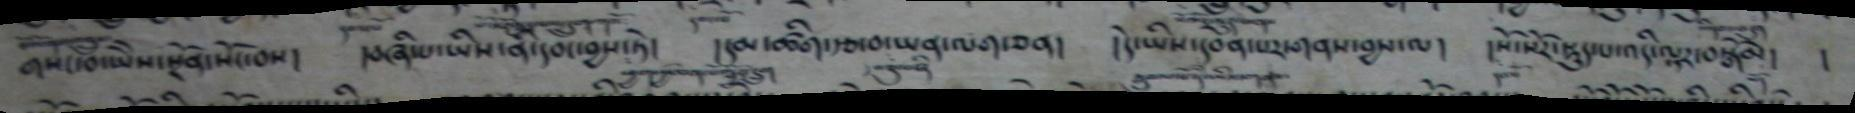གསང་པ་ཡེེས་སྔོན་སོང་བས།  ། བཞི་པ་ཡིས་ནི་དབང་བྱས་ཏེ།    དམ་ཚིག་རྩ་བ་ཡན་ལག་ཅན།   །དེ་ཡིས་དབེན་པར་གནས་བྱས་ལ།   ། སོ་སོར་སྡུད་པ་འདི་ལྟར་བསྒོམ།   །
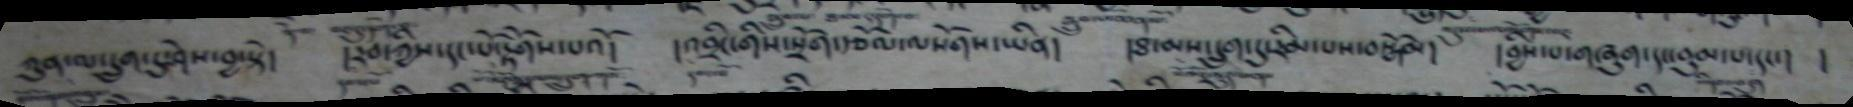ཀུན་ལ་དྲུག་དུ་ཤེས་བྱ་སྟེ།     །རབ་ཀྱིས་དང་པོ་རྟོགས་པའོ།    ། འབྲིང་གིས་སྲོག་རྩོལ་ལསོགས་ཡིན།   །ཐ་མས་དྲུག་དུ་རིམ་པས་བསྒོམ།     །བྱིས་པ་གཞུག་དང་བུམ་པ་དང་།    །
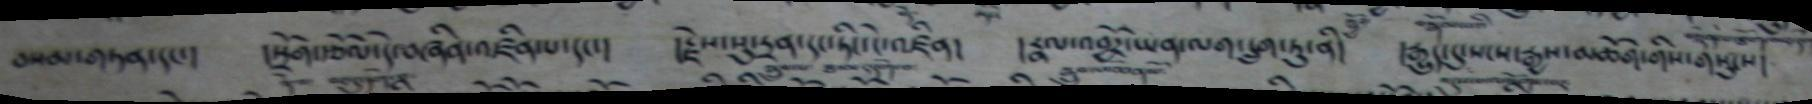བསམ་གཏན་དང་།    །སྲོག་རྩོལ་དེ་བཞིན་འཛིན་པ་དང་།   །རྗེས་སུ་དྲན་དང་ཏིང་ངེ་འཛིན།   །  རྣལ་འབྱོར་ཡན་ལག་དྲུག་ཏུ་ནི།   །རྒྱུད་དུ་སངས་རྒྱས་མཆོག་གིས་གསུངས།
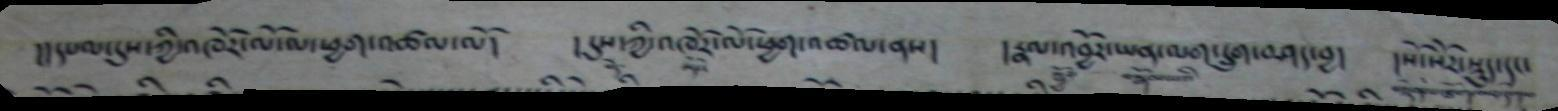།།དཔལ་དུས་ཀྱི་འཁོར་ལོ་ལ་ཕྱག་འཚལ་ལོ། །དུས་ཀྱི་འཁོར་ལོ་ཕྱག་འཚལ་ནས། །རྣལ་འབྱོར་ཡན་ལག་དྲུག་བཤད་བྱ། །སོ་སོར་སྡུད་དང་
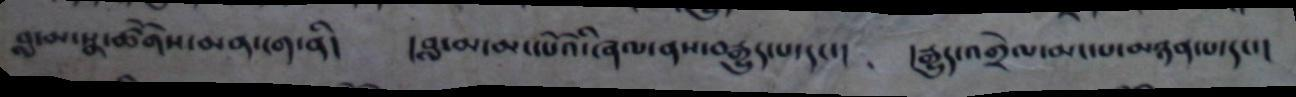བླ་མ་སྣ་ཚོགས་མན་ངག་ནི། །བླ་མ་མང་པོའི་ཞལ་ནས་བརྒྱུད་པ་དང་། །རྒྱུད་འགྲེལ་མང་པ་མཉམ་པ་དང་།
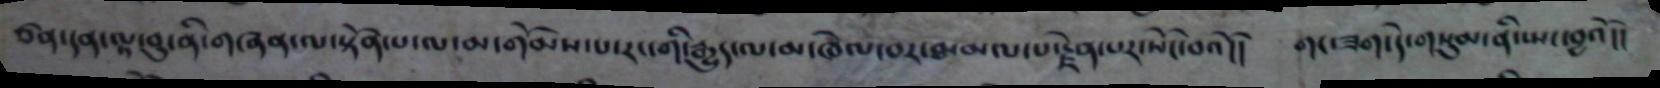ཙན་དན་ལྟ་བུ་ནི་གཞན་ལ་སྟོན་པ་ལ་མ་གོམས་པ་རང་གི་རྒྱུད་ལ་མ་ཁེལ་བར་ཐ་མལ་པ་རྗེན་པར་སོང་བའོ།། གང་ཟག་དེ་གསུམ་ནི་ཡང་བྱའོ།།
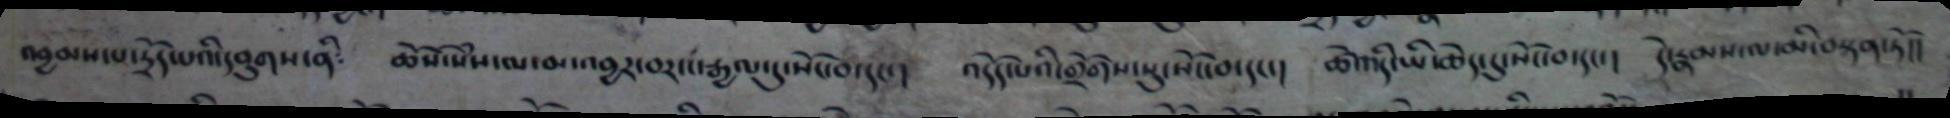འབྱམས་པ་དྲོད་པའི་དབུགས་ནི༴ ཆོས་སེཾས་ལ་མ་འབྱར་བར་ང་རྒྱལ་དུ་སོང་བ་དང་། འདོད་པའི་གྲོགས་སུ་སོང་བ་དང་། ཚེ་འདི་ཡི་ཆེད་དུ་སོང་བ་དང་། དེ་རྣམས་ལ་མི་བསྟན་ཏོ།།
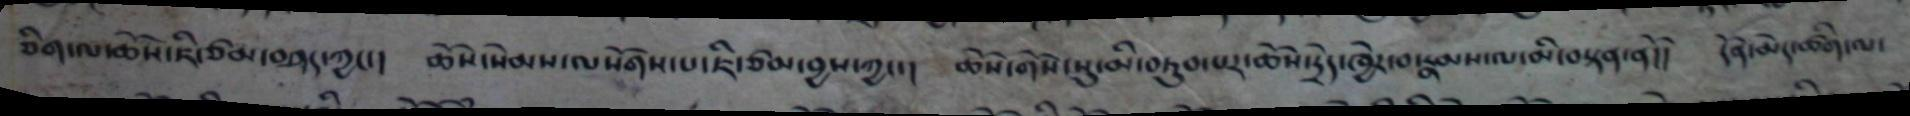ཅིག་ལ་ཆོས་ཇི་ཙམ་བཤད་ཀྱང་། ཆོས་སེམས་ལསོགས་པ་ཇི་ཙམ་བྱས་ཀྱང་། ཆོས་གོས་སུ་མི་བཏུབ་པར་ཆོས་དྲོད་ཁྱེར་བ་རྣམས་ལ་མི་བསྟན་ནོ།། དོན་མེད་ཚིག་ལ་
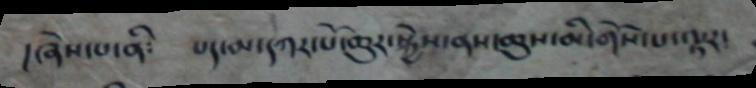།ཞེས་པ་ནི༴ པད་མ་དཀར་པོ་ཆུར་སྐྱེས་ནས་ཆུས་མི་གོས་པ་ལྟར་
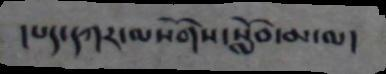།པད་དཀར་ལསོགས་སློབ་མ་ལ།
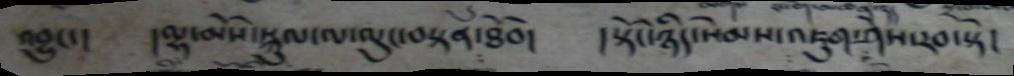འབྱུང་། །ལྷ་མོས་སྐུལ་ལ་ལུང་བསྟན་ཐོབ། །སྟོང་ཉཱིད་སེམས་འཇུག་ཤེས་རབ་སྟེ།
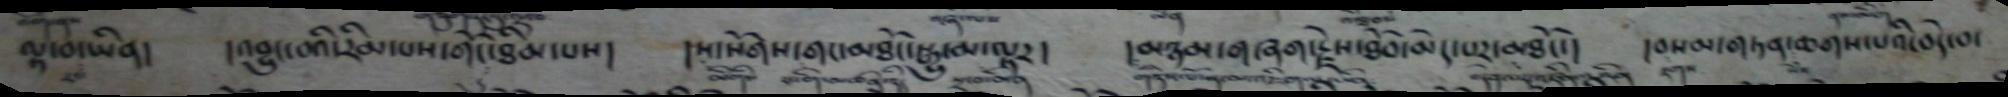ལྟ་བ་ཡིན།    །འབྱུང་བའི་རིམ་པས་གོང་ཐམ་པས།   དས་སོགས་གང་མཐོང་སྒྱུ་མ་ལྟར།   །མཉམ་གཞག་རྗེས་ཐོབ་མེད་པར་མཐོང་།།   །བསམ་གཏན་ཆགས་པའི་བདེ་བ་
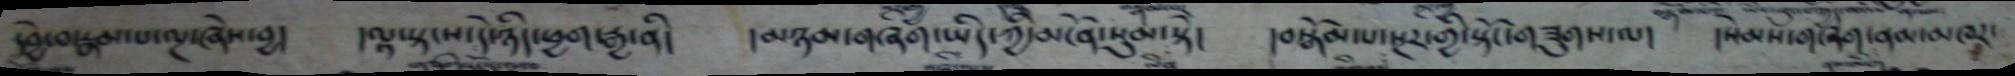དབྱེ་བ་རྣམ་པ་ལྔ་ཞེས་བྱ།    །ལྟ་སྟངས་དེ་ཉིད་ཕྱག་རྒྱ་ནི།   །མཉམ་གཞག་ཡིད་ཀྱི་མངོན་སུམ་སྟེ།      །བསྒོམ་པ་སྔར་གྱི་སྟོང་གཟུགས་ལ།   །སེམས་གཞག་ནམ་མཁར་
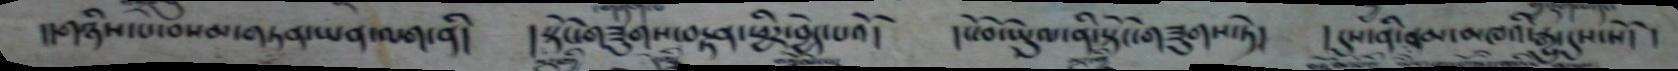།།གཉིས་པ་བསམ་གཏན་ཡན་ལག་ནི།  །སྟོང་གཟུགས་བརྟན་ཕྱིར་བྱེད་པའོ།   །ངོ་བོ་ཡུལ་ནི་སྟོང་གཟུགས་ཏེ།   ། དུས་ནི་ནམ་མཁའི་རྒྱུ་དུས་སོ། །
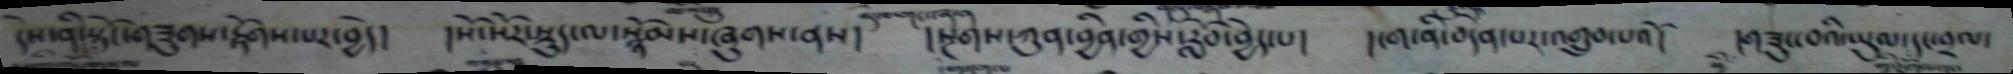དེས་ནི་སྟོང་གཟུགས་རྟོགས་པར་བྱེད།    །སོ་སོར་སྡུད་ལ་སྙོམས་ཞུགས་ནས།  སྔགས་ཀུན་བྱིན་གྱིས་རློབ་བྱེད་པ།   །ངག་ནི་བདེན་པར་འགྲུབ་པའོ།   །གཟུང་བའི་ཡུལ་དང་བྲལ་
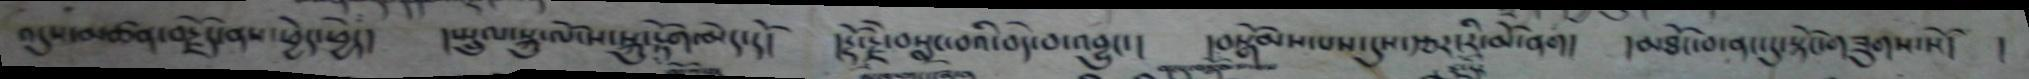འདུས་མཚན་བརྗོད་ནས་ཕྱེད་ཕྱེད། །སྤྲུལ་སྐུ་ལོངས་སྐུ་རྟོག་མེད་དོ། །རྡོ་རྗེ་བསླང་བའི་བདེ་བ་འབྱུང་། །བསྒོམས་པས་དུས་རྩར་རི་མོ་ནག། མཐོང་བ་ནང་དུ་སྟོང་གཟུགས་སོ། །
